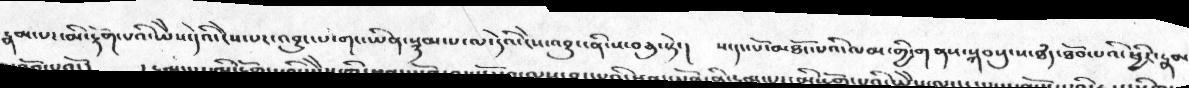རྣམ་པར་མི་རྟོག་པའི་ཡཻས་དེའི་ངེས་པར་འབྱུང་པ་གང་ཡིན་སྙམ་པ་ལ་དེའི་ངེས་འབྱུང་ནི་ས་བཅུ་སྟེ་།    ས་དང་པོ་མཐོང་པའི་ལམ་གྱི་གནས་སྐབསུ་ས་ཐཾད་ཐོབ་པའི་ཕྱིར་རྣམ
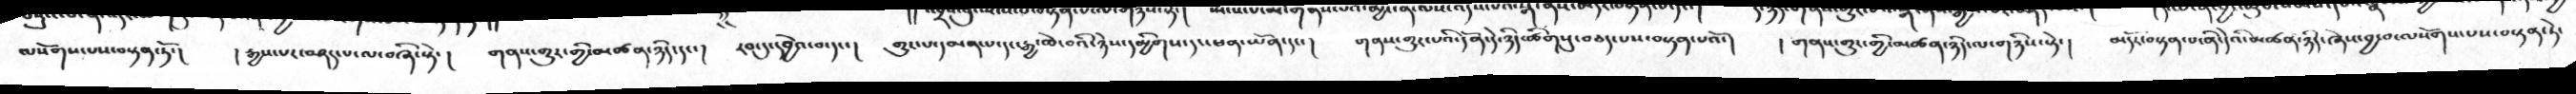ལསོགས་པས་བསྟན་ཏོ་།   ། རྒྱས་པར་བཤད་པ་ལ་བཞི་སྟེ་།   གནས་གྱུར་གྱི་མཚན་ཉིད་དང་།   རབ་དུ་དབྱེའ་བ་དང་།   གྱུར་པ་དམན་པ་དང་རྒྱ་ཆེ་བའི་ཉེས་དམྱིགས་དང་ཕན་ཡོན་དང་།    གནས་གྱུར་པའི་དོན་དེ་ཉིད་ཚིགསུ་བཅད་པས་བསྟན་པའོ་།    ། གནས་གྱུར་གྱི་མཚན་ཉིད་ལ་གཉིས་སྟེ་།   མདོར་བསྟན་པ་ནི་དེའི་མཚན་ཉིད་ཞེས་བྱ་བ་ལསོགས་པས་བསྟན་ཏེ་
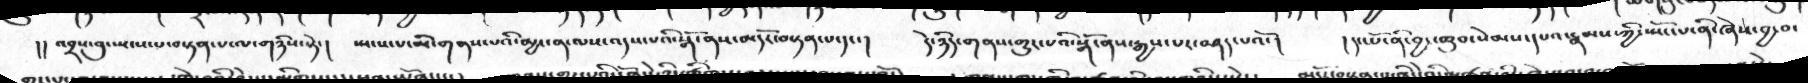།།འབྲས་བུ་སྤངས་པ་བསྟན་པ་ལ་གཉིས་སྟེ་།   སྤངས་པ་མི་གནས་པའི་མྱ་ངན་ལས་འདས་པའི་སྒོ་ནས་མདོར་བསྟན་པ་དང་།   དེ་ཉིདགནས་གྱུར་པའི་སྒོ་ནས་རྒྱས་པར་བཤད་པའོ་།   །དང་པོ་ནི་བྱང་ཆུབ་སེམས་དཔའ་རྣམས་ཀྱི་སྤོང་པ་ནི་ཞེས་བྱ་བ་
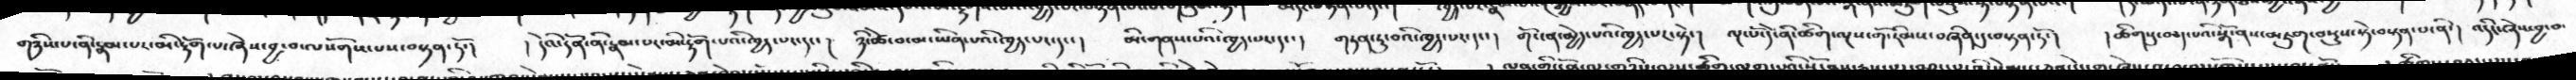གཉིས་པ་ནི་རྣམ་པར་མི་རྟོག་པ་ཞེས་བྱ་བ་ལསོགས་པས་བསྟན་ཏོ་།   ། དེའི་དོན་ནི་རྣམ་པར་མི་རྟོག་པའི་ཁྱད་པར་དང་།   ཉི་ཚེ་བ་མ་ཡིན་པའི་ཁྱད་པར་དང་།   མི་གནས་པའི་ཁྱད་པར་དང་།    གཏན་ཏུ་བའི་ཁྱད་པར་དང་།    གོང་ན་མྱེད་པའི་ཁྱད་པར་སྟེ་།   ལྔ་པོ་དེ་ནི་ཚིག་ལྔས་གོ་རིམ་བཞིན་དུ་བསྟན་ཏོ་།   །ཚིགསུ་བཅད་པའི་སྒོ་ནས་མཇུག་བསྡུས་སྟེ་བསྟན་པ་ནི་།    འདི་ཞེས་བྱ་བ་
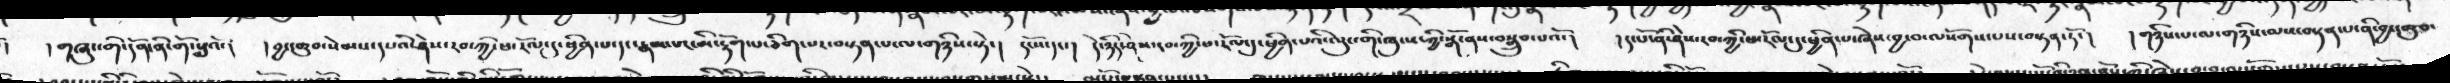།   །གཞུང་གི་དོན་ནི་གོ་སླའོ་།    །བྱང་ཆུབ་སེམས་དཔའི་ཤེས་རབ་ཀྱི་ཕ་རོལ་དུ་ཕྱིན་པ་དང་རྣམ་པར་མི་རྟོག་པ་ཅིག་པར་བསྟན་པ་ལ་གཉིས་སྟེ་།   དངོས་དང་།   དེ་ཉིད་ཤེས་རབ་ཀྱི་ཕ་རོལ་དུ་ཕྱིན་པའི་ལུང་གི་ཁུངས་ཀྱི་སྒོ་ནས་བསྒྲུབ་པའོ་།    དང་པོ་ནི་ཤེས་རབ་ཀྱི་ཕ་རོལ་དུ་ཕྱིན་པ་ཞེས་བྱ་བ་ལསོགས་པས་བསྟན་ཏོ་།   ། གཉིས་པ་ལ་གཉིས་ལས་བསྟན་པ་ནི་བྱང་ཆུབ་
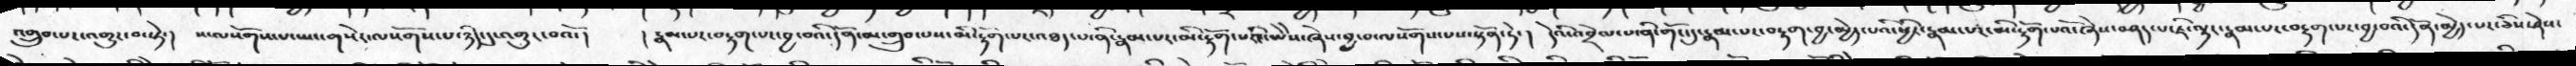འགྲུབ་པར་འགྱུར་བ་སྟེ་།  ས་ལསོགས་པ་ཡང་གསེར་ལསོགས་པ་ཉིད་དུ་འགྱུར་བའོ་།  ། རྣམ་པར་བརྟག་པར་བྱ་བའི་དོན་མ་གྲུབ་པས་མི་རྟོག་པར་འཐད་པ་ནི་རྣམ་པར་མི་རྟོག་པའི་ཡཻས་ཞེས་བྱ་པ་ལསོགས་པས་སྟོན་ཏེ་།  དེའི་འབྲེལ་པ་ནི་གོང་དུ་རྣམ་པར་བརྟག་བྱ་མྱེད་པའི་ཕྱིར་རྣམ་པར་མི་རྟོག་པའོ་ཞེས་བཤད་པ་ཇི་ལྟར་རྣམ་པར་བརྟག་པར་བྱ་བའི་དོན་མྱེད་པར་ཅིས་ཤེས་
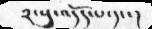༢་སུ་འདོད་པ་དང་།
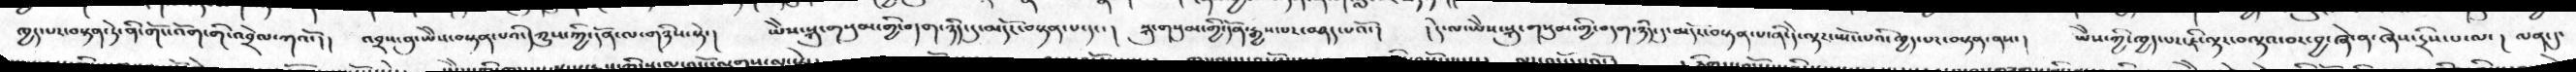ཁྱད་པར་བསྟན་ཏེ་ནི་གོང་འོག་གི་འབྲེལ་ཀའོ་།།    འབྲས་བུ་ཡཻས་བསྟན་པའི་དཀྱུས་ཀྱི་དོན་ལ་གཉིས་སྟེ་།   ཡཻས་སྐུ་གསུམ་གྱི་བདག་ཉིད་དུ་མདོར་བསྟན་པ་དང་།   སྐུ་གསུམ་གྱི་དོན་རྒྱས་པར་བཤད་པའོ་།   །དེ་ལ་ཡཻས་སྐུ་གསུམ་གྱི་བདག་ཉིད་དུ་མདོར་བསྟན་པ་ནི་དེ་ལྟར་སྤོང་པའི་ཁྱད་པར་བསྟན་ནས་།   ཡཻས་ཀྱི་ཁྱད་པར་ཇི་ལྟར་བལྟའ་བར་བྱ་ཞེ་ན་ཞེས་དྲིས་པ་ལ་།   ལན་དུ་
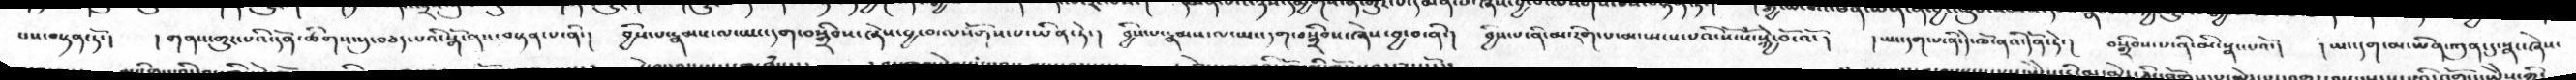པས་བསྟན་ཏོ་།   །གནས་གྱུར་པའི་དོན་ཚིགས་སུ་བཅད་པའི་སྒོ་ནས་བསྟན་པ་ནི་།   བྱིས་པ་རྣམས་ལ་ཡང་དག་བསྒྲིབས་ཞེས་བྱ་བ་ལསོགས་པ་ཡིན་ཏེ་།   བྱིས་པ་རྣམས་ལ་ཡང་དག་བསྒྲིབས་ཞེས་བྱ་བ་ནི་།   བྱིས་པ་ནི་མ་རིག་པ་མ་སྤངས་པའི་སོ་སོ་སྐྱེ་བོ་འོ་།   །ཡང་དག་ནི་དེ་ཁོ་ནའི་དོན་ཏོ་།  བསྒྲིབ་པ་ནི་མི་སྣང་པའོ་།   །ཡང་དག་མ་ཡིན་ཀུན་དུ་སྣང་ཞེས་
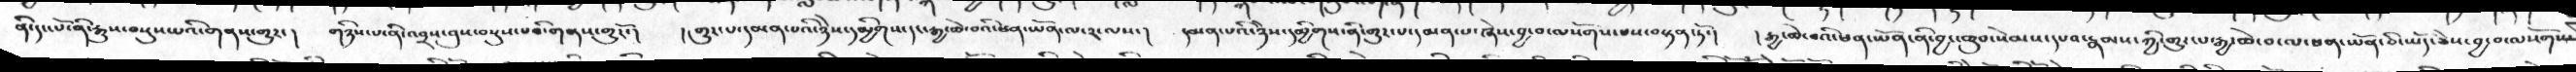ནི་དང་པོ་ནི་རྒྱུས་བསྡུས་པའི་གནས་གྱུར་།   གཉིས་ན་ནི་འབྲས་བུས་བསྡུས་པའི་གནས་གྱུརོ་།   །གྱུར་པ་དམན་པའི་ཉེས་དམྱིགས་དང་རྒྱ་ཆེ་བའི་ཕན་ཡོན་ལ་༢་ལས་།    དམན་པའི་ཉེས་དམྱིགས་ནི་གྱུར་པ་དམན་པ་ཞེས་བྱ་བ་ལསོགས་པས་བསྟན་ཏོ་།   །རྒྱ་ཆེ་བའི་ཕན་ཡོན་ནི་བྱང་ཆུབ་སེམས་དཔའ་རྣམས་ཀྱི་གྱུར་པ་རྒྱ་ཆེ་བ་ལ་ཕན་ཡོན་ཅི་ཡོད་ཅེས་བྱ་བ་ལསོགས་
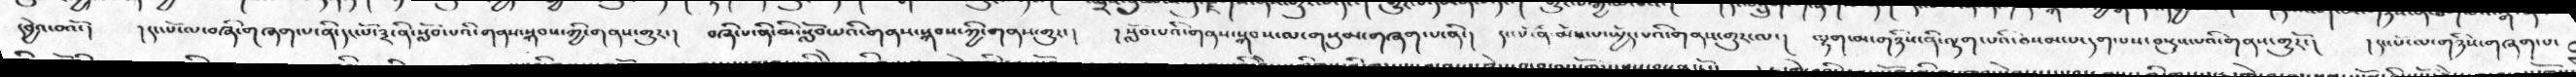དབྱེའ་བའོ་།    །དང་པོ་ལ་བཞི་གཞག་པ་ནི་དང་པོ་༣་ནི་སློབ་པའི་གནས་སྐབས་ཀྱི་གནས་གྱུར་།   བཞི་པ་ནི་མི་སློབ་པའི་གནས་སྐབས་ཀྱི་གནས་གྱུར་།    །སློབ་པའི་གནས་སྐབས་ལ་གསུམ་གཞག་པ་ནི་།   དང་པོ་ནི་མོས་པ་སྤྱོད་པའི་གནས་གྱུར་ལ་།   ལྷག་མ་གཉིས་ནི་ལྷག་པའི་བསམ་པ་དག་པས་བསྡུས་པའི་གནས་གྱུརོ་།   །དང་པོ་ལ་གཉིས་གཞག་པ་
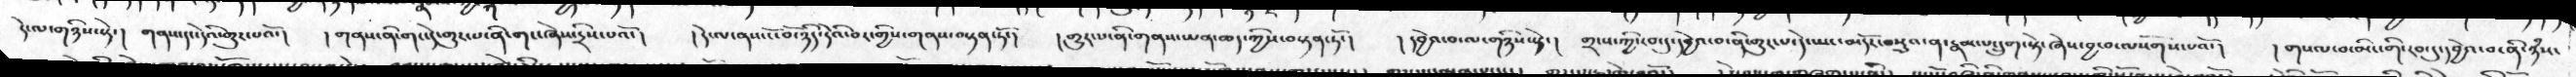དེ་ལ་གཉིས་སྟེ་།   གནས་དང་དེའི་གྱུར་པའོ་།   །གནས་ནི་གང་དེ་གྱུར་པ་ནི་གང་ཞེས་དྲིས་པའོ་།   །དེ་ལ་ནས་ངོ་བོ་ཉིད་དེའི་བར་གྱིས་བསྟན་ཏོ་།   །གྱུར་པ་ནི་གནས་ཡན་ཆད་ཀྱིས་བསྟན་ཏོ་།   །དབྱེའ་བ་ལ་གཉིས་སྟེ་།   གྲངས་ཀྱི་རབ་ཏུ་དབྱེའ་བ་ནི་གྱུར་པ་དེ་ཡང་མདོར་བསྡུས་ན་རྣམ་པ་དྲུག་སྟེ་ཞེས་བྱ་བ་ལསོགས་པའོ་།   །གསལ་མ་མིང་གི་རབ་དུ་དབྱེའ་བ་ནི་ཉཾས་
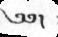༄༅།
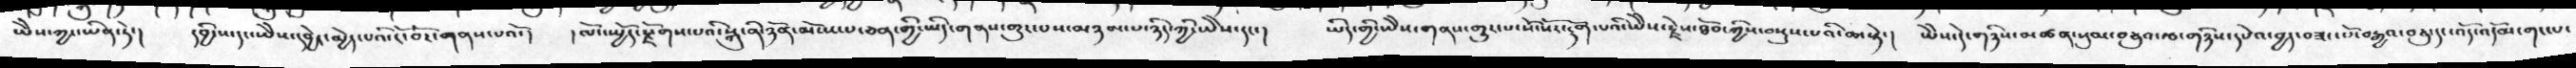ཡཻས་ཀྱང་ཡིན་ཏེ་།   དབྱིངས་དང་ཡཻས་དབྱེར་མྱེད་པའི་ངོ་བོ་གནས་པའོ་།   །ལོང་སྤྱོད་རྫོགས་པའི་སྐུ་ནི་ཉོན་མོངས་པ་ཅན་གྱི་ཡིད་གནས་གྱུར་པས་མཉམ་པ་ཉིད་ཀྱི་ཡཻས་དང་།   ཡིད་ཀྱི་ཡཻས་གནས་གྱུར་པ་སོ་སོར་རྟོག་པའི་ཡཻས་རྗེས་ཐོབ་ཀྱིས་བསྡུས་པའི་ཆ་སྟེ་།   ཡཻས་དེ་གཉིས་མཚན་སུམ་བཅུའ་རྩ་གཉིས་དཔེའ་བྱད་བཟང་པོ་བརྒྱའ་བཅུ་དང་འོད་འདོམ་གང་པ་
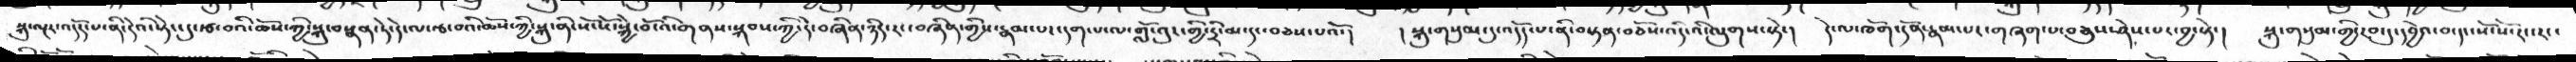སྐུ་ལྔར་འདོད་པ་ནི་དེའི་སྟེང་དུ་རྩ་བའི་ཆོས་ཀྱི་སྐུ་བསྣན་ཏེ་དེ་ལ་རྩ་བའི་ཆོས་ཀྱི་སྐུ་ནི་སོ་སོ་སྐྱེ་བོ་འི་གནས་སྐབས་ཀྱི་དེ་བཞིན་ཉིད་རང་བཞིན་གྱིས་རྣམ་པར་དག་པ་ལ་གློ་འུར་གྱི་དྲི་མ་དང་བཅས་པའོ་།   །སྐུ་གསུམ་དུ་འདོད་པ་ནི་བསྟན་བཅོས་འདིའི་ལུགས་སྟེ་།   དེ་ལ་ཁོག་དོན་རྣམ་པར་གཞག་པ་བཅུས་ཤེས་པར་བྱ་སྟེ་།   སྐུ་གསུམ་གྱི་རབ་དུ་དབྱེའ་བ་དང་སོ་སོ་རང་རང་
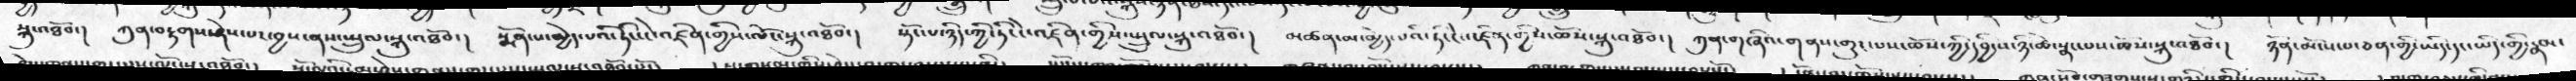སྐུ་འཐོབ་།   ཀུན་བརྟགས་ཤེས་པར་བྱས་ནས་སྤྲུལ་སྐུ་འཐོབ་།   སྨོན་པ་མྱེད་པའི་ཏིང་ངེ་འཛིན་གྱིས་ལོང་སྐུ་འཐོབ་།   སྟོང་པ་ཉིད་ཀྱི་ཏིང་ངེ་འཛིན་གྱིས་སྤྲུལ་སྐུ་འཐོབ་།   མཚན་མ་མེད་པའི་ཏིང་ངེ་འཛིན་གྱིས་ཆོས་སྐུ་འཐོབ་།   ཀུན་གཞིའ་གནས་གྱུར་པས་ཆོས་ཀྱི་དབྱིངས་ཉི་ཚེ་སྣང་པས་ཆོས་སྐྱུ་འཐོབ་།   ཉོན་མོངས་པ་ཅན་གྱི་ཡིད་དང་ཡིད་གྱི་རྣམ་
